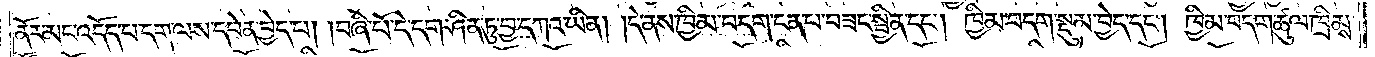ནོར་མང་འདོད་པ་དག་ལས་དབེན་བྱེད་པ། །བཞི་པོ་དེ་དག་ཤིན་ཏུ་བྱ་དཀའ་ཡིན། །དེ་ནས་ཁྱིམ་བདག་ངན་པ་བཟང་སྦྱིན་དང༌། ཁྱིམ་བདག་སྡུམ་བྱེད་དང༌། ཁྱིམ་བདག་ཚུལ་ཁྲིམས་
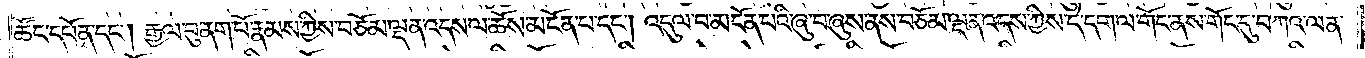ཚོང་དཔོན་དང༌། རྒྱལ་བུ་ནག་པོ་རྣམས་ཀྱིས་བཅོམ་ལྡན་འདས་ལ་ཆོས་མངོན་པ་དང༌། འདུལ་བ་མངོན་པའི་ཞུ་བ་ཞུས་ནས་བཅོམ་ལྡན་འདས་ཀྱིས་དེ་དག་ལ་གོང་ནས་གོང་དུ་བཀའ་ལན་
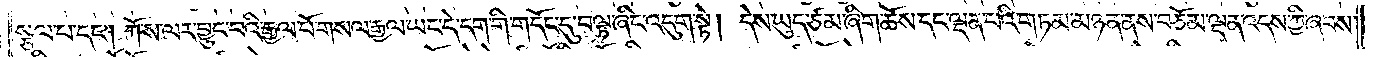སྩལ་པ་དང༌། ཀོ་ས་ལར་བྱུང་བའི་རྒྱལ་པོ་གསལ་རྒྱལ་ཡང་དེ་དག་གི་གདོང་དུ་བལྟ་ཞིང་འདུག་སྟེ། དེས་ཡུད་ཙམ་ཞིག་ཆོས་དང་ལྡན་པའི་གཏམ་མཉན་ནས་བཅོམ་ལྡན་འདས་ཀྱི་ཞབས་
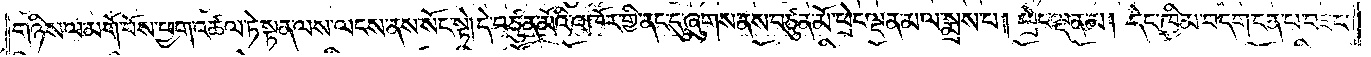གཉིས་ལ་མགོ་བོས་ཕྱག་འཚལ་ཏེ་སྟན་ལས་ལངས་ནས་སོང་སྟེ། དེ་བཙུན་མོའི་འཁོར་གྱི་ནང་དུ་ཞུགས་ནས་བཙུན་མོ་ཕྲེང་ལྡན་མ་ལ་སྨྲས་པ། ཕྲེང་ལྡན་མ། དེང་ཁྱིམ་བདག་ངན་པ་བཟང་
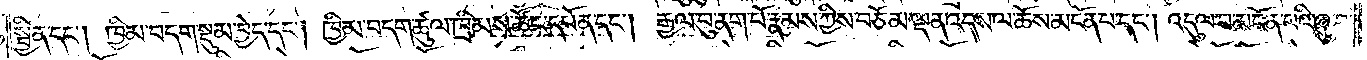སྦྱིན་དང༌། ཁྱིམ་བདག་སྡུམ་བྱེད་དང༌། ཁྱིམ་བདག་ཚུལ་ཁྲིམས་ཚོང་དཔོན་དང༌། རྒྱལ་བུ་ནག་པོ་རྣམས་ཀྱིས་བཅོམ་ལྡན་འདས་ལ་ཆོས་མངོན་པ་དང༌། འདུལ་བ་མངོན་པའི་ཞུ་བ་
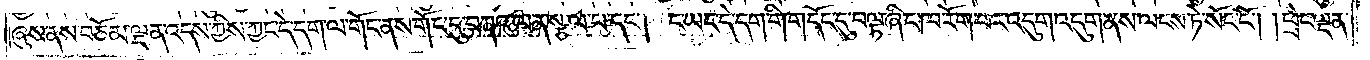ཞུས་ནས་བཅོམ་ལྡན་འདས་ཀྱིས་ཀྱང་དེ་དག་ལ་གོང་ནས་གོང་དུ་བཀའ་ལན་སྩལ་པ་དང༌། ང་ཡང་དེ་དག་གི་གདོང་དུ་བལྟ་ཞིང་ཁ་རོག་པར་འདུག་འདུག་ནས་ལངས་ཏེ་སོང་ངོ༌། །ཕྲེང་ལྡན་
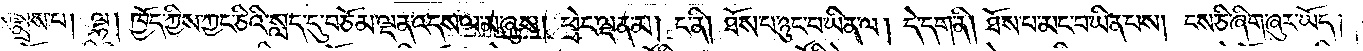སྨྲས་པ། ལྷ། ཁྱོད་ཀྱིས་ཀྱང་ཅིའི་སླད་དུ་བཅོམ་ལྡན་འདས་ལ་མ་ཞུས། ཕྲེང་ལྡན་མ། ང་ནི། ཐོས་པ་ཉུང་བ་ཡིན་ལ། དེ་དག་ནི། ཐོས་པ་མང་བ་ཡིན་པས། ངས་ཅི་ཞིག་ཞུར་ཡོད།
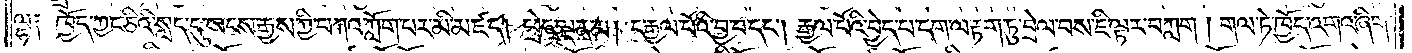ལྷ༑ ཁྱོད་ཀྱང་ཅིའི་སླད་དུ་སངས་རྒྱས་ཀྱི་བཀའ་ཀློག་པར་མི་མཛད། ཕྲེང་ལྡན་མ། ང་རྒྱལ་པོའི་བྱ་བ་དང༌། རྒྱལ་པོའི་བྱེད་པ་དག་ལ་རྟག་ཏུ་བྲེལ་བས་ཇི་ལྟར་བཀླག ། གལ་ཏེ་ཁྱོད་འགའ་ཞིག་
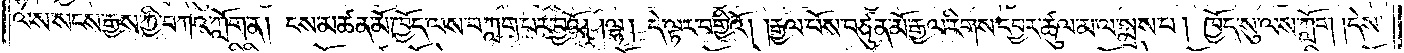ལས་སངས་རྒྱས་ཀྱི་བཀའ་ཀློག་ན། ངས་མཚན་མོ་ཁྱོད་ལས་བཀླག་པར་བྱའོ། །ལྷ། དེ་ལྟར་བགྱིའོ། །རྒྱལ་པོས་བཙུན་མོ་རྒྱལ་རིགས་དབྱར་ཚུལ་མ་ལ་སྨྲས་པ། ཁྱོད་སུ་ལས་ཀློག །དེས་
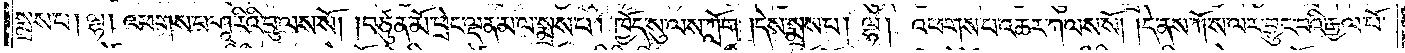སྨྲས་པ། ལྷ། འཕགས་པ་ཤཱ་རིའི་བུ་ལས་སོ། །བཙུན་མོ་ཕྲེང་ལྡན་མ་ལ་སྨྲས་པ། ཁྱོད་སུ་ལས་ཀློག །དེས་སྨྲས་པ། ལྷ། འཕགས་པ་འཆར་ཀ་ལས་སོ། །དེ་ནས་ཀོ་ས་ལར་བྱུང་བའི་རྒྱལ་པོ་
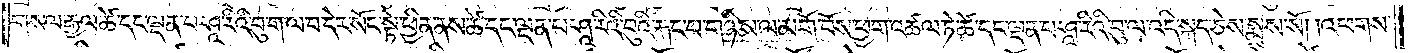གསལ་རྒྱལ་ཚེ་དང་ལྡན་པ་ཤཱ་རིའི་བུ་ག་ལ་བ་དེར་སོང་སྟེ་ཕྱིན་ནས་ཚེ་དང་ལྡན་པ་ཤཱ་རིའི་བུའི་རྐང་པ་གཉིས་ལ་མགོ་བོས་ཕྱག་འཚལ་ཏེ་ཚེ་དང་ལྡན་པ་ཤཱ་རིའི་བུ་ལ་འདི་སྐད་ཅེས་སྨྲས་སོ། །འཕགས་
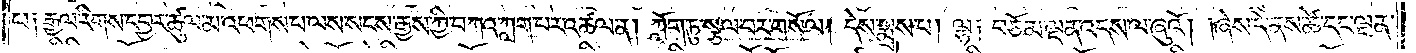པ༑ རྒྱལ་རིགས་དབྱར་ཚུལ་མ་འཕགས་པ་ལས་སངས་རྒྱས་ཀྱི་བཀའ་ཀླག་པར་འཚལ་ན། ཀློག་ཏུ་སྩལ་བར་གསོལ། དེས་སྨྲས་པ། ལྷ། བཅོམ་ལྡན་འདས་ལ་ཞུའོ། །ཞེས་དེ་ནས་ཚེ་དང་ལྡན་
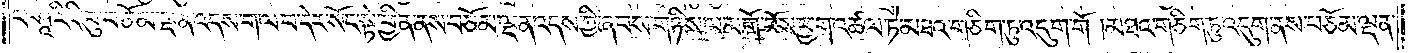པ་ཤཱ་རིའི་བུ་བཅོམ་ལྡན་འདས་ག་ལ་བ་དེར་སོང་སྟེ་ཕྱིན་ནས་བཅོམ་ལྡན་འདས་ཀྱི་ཞབས་གཉིས་ལ་མགོ་བོས་ཕྱག་འཚལ་ཏེ་མཐའ་གཅིག་ཏུ་འདུག་གོ །མཐའ་གཅིག་ཏུ་འདུག་ནས་བཅོམ་ལྡན་
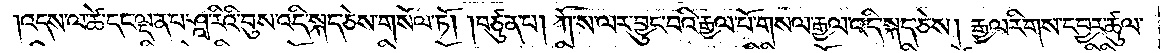།འདས་ལ་ཚེ་དང་ལྡན་པ་ཤཱ་རིའི་བུས་འདི་སྐད་ཅེས་གསོལ་ཏོ། །བཙུན་པ། ཀ་ས་ལར་བྱུང་བའི་རྒྱལ་པོ་གསལ་རྒྱལ་འདི་སྐད་ཅེས། རྒྱལ་རིགས་དབྱར་ཚུལ་
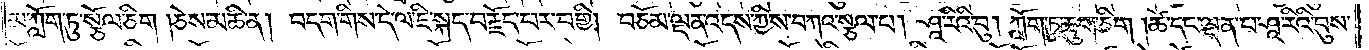མ་ཀློག་ཏུ་སྩོལ་ཅིག །ཅེས་མཆི་ན། བདག་གིས་དེ་ལ་ཇི་སྐད་བརྗོད་པར་བགྱི། བཅོམ་ལྡན་འདས་ཀྱིས་བཀའ་སྩལ་པ། ཤཱ་རིའི་བུ། ཀློག་ཏུ་ཆུག་ཅིག །ཚེ་དང་ལྡན་པ་ཤཱ་རིའི་བུས་
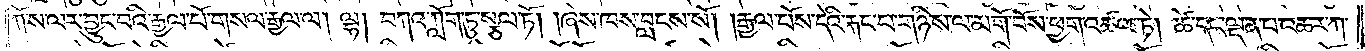ཀོ་ས་ལར་བྱུང་བའི་རྒྱལ་པོ་གསལ་རྒྱལ་ལ། ལྷ། བཀའ་ཀློག་ཏུ་སྩལ་ཏོ། །ཞེས་ཁས་བླངས་སོ། །རྒྱལ་པོས་དེའི་རྐང་པ་གཉིས་ལ་མགོ་བོས་ཕྱག་འཚལ་ཏེ། ཚེ་དང་ལྡན་པ་འཆར་ཀ་
